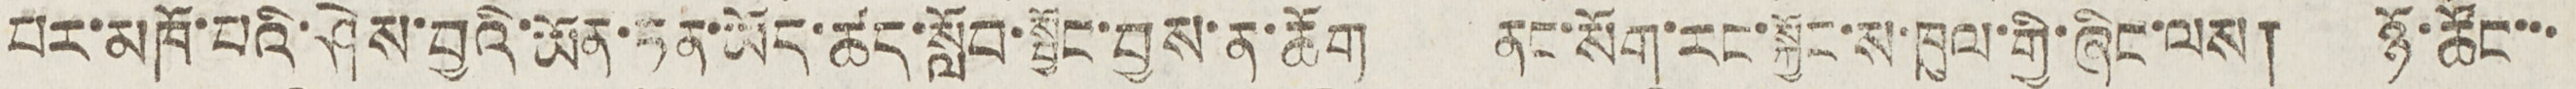པར་མཁོ་པའི་ཤེས་བྱའི་ཡོན་ཏན་ཡོད་ཚད་སློབ་སྦྱོང་བྱས་ན་ཆོག ནང་སོག་རང་སྐྱོང་ས་ཁུལ་གྱི་ཞིང་ལས། ཉོ་ཚོང་་་
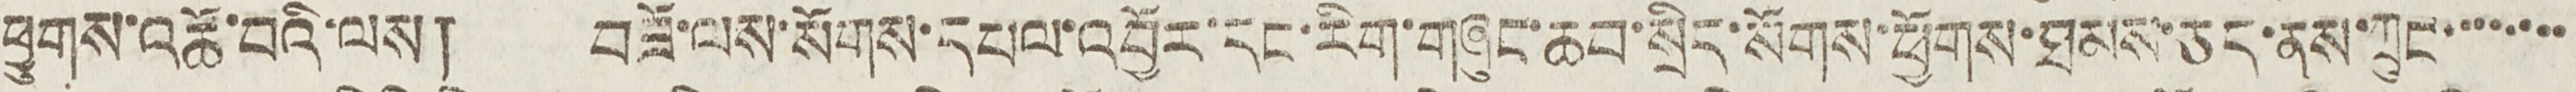ཕྱུགས་འཚོ་བའི་ལས། བཟོ་ལས་སོགས་དཔལ་འབྱོར་དང་རིག་གཞུང་ཆབ་སྲིད་སོགས་ཕྱོགས་ཐམས་ཅད་ནས་ཀྲུང་་་་་་་་
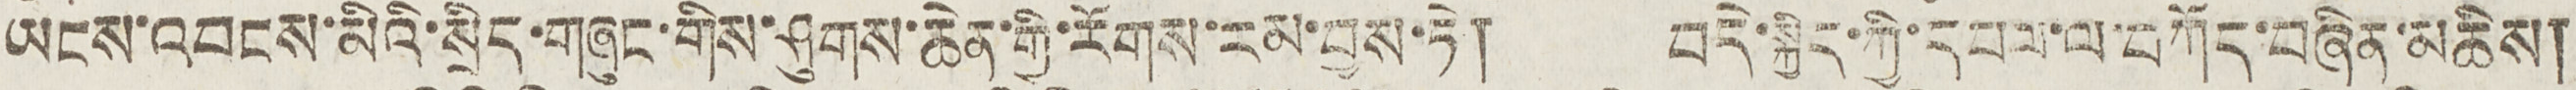ཡངས་འབངས་མིའི་སྲིད་གཞུང་གིས་ཤུགས་ཆེན་གྱི་རོགས་རམ་བྱས་ཏེ། བདེ་སྐྱིད་ཀྱི་དཔལ་ལ་བཀོད་བཞིན་མཆིས།
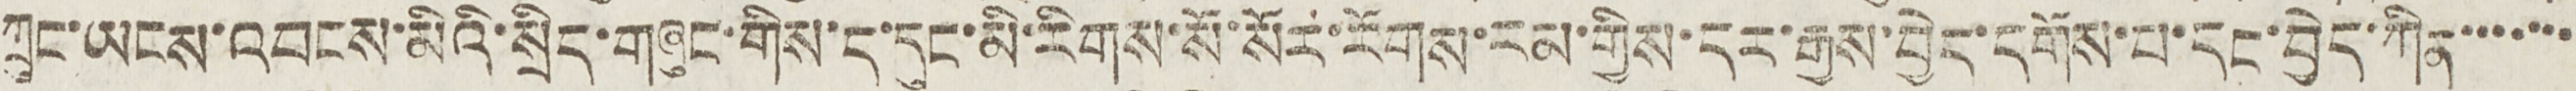ཀྲུང་ཡངས་འབངས་མིའི་སྲིད་གཞུང་གིས་ད་དུང་མི་རིགས་སོ་སོར་རོགས་རམ་གྱིས་དར་རྒྱས་བྱེད་དགོས་པ་དང་བྱེད་ཀིན་་་་་་་
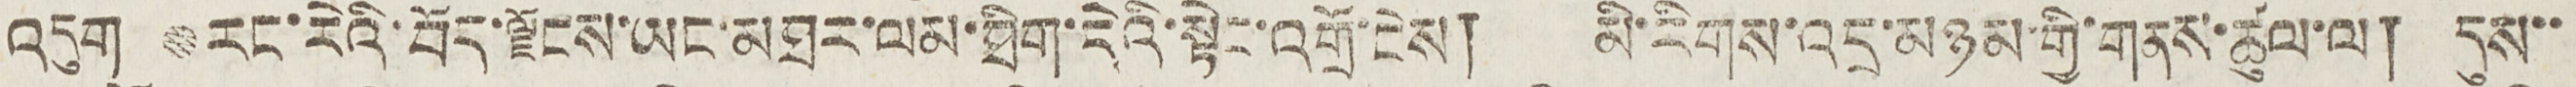འདུག རང་རེའི་བོད་ལྗོངས་ཡང་མཐར་ལམ་ཐིག་དེའི་སྟེང་འགྲོ་ངེས། མི་རིགས་འདྲ་མཉམ་གྱི་གནས་ཚུལ་ལ། དུས་་
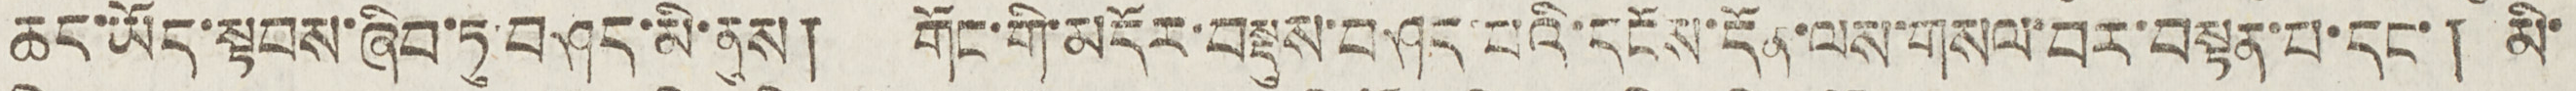ཆང་ཡོད་སྟབས་ཞིབ་ཏུ་བཤད་མི་ནུས། གོང་གི་མདོར་བསྡུས་བཤད་པའི་དངོས་དོན་ལས་གསལ་བར་བསྟན་པ་དང་། མི
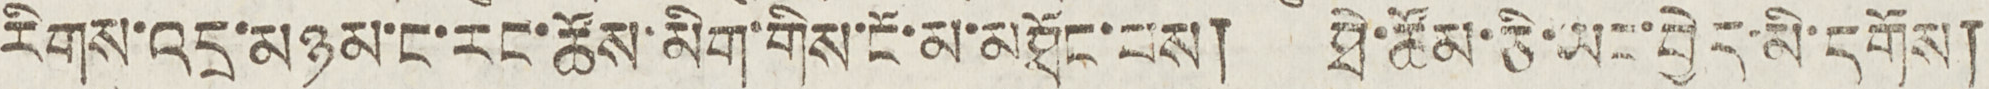རིགས་འདྲ་མཉམ་ང་རང་ཚོས་མིག་གིས་ངོ་མ་མཐོང་པས། ཐེ་ཚོམ་ཅི་ཡང་བྱེད་མི་དགོས།
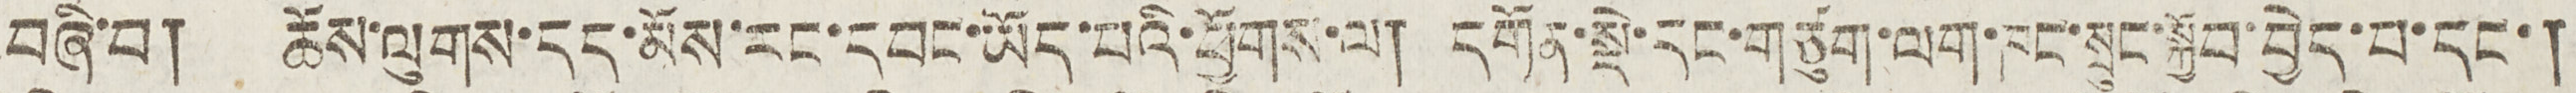བཞི་བ། ཆོས་ལུགས་དད་མོས་རང་དབང་ཡོད་པའི་ཕྱོགས་ལ། དགོན་སྡེ་དང་གཙུག་ལག་ཁང་སྲུང་སྐྱོབ་བྱེད་པ་དང་།
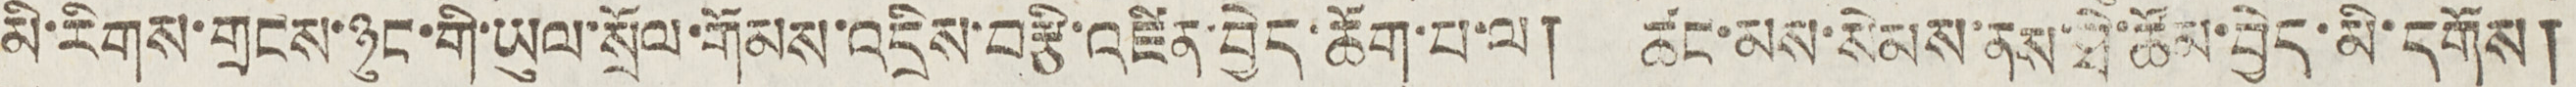མི་རིགས་གྲངས་ཉུང་གི་ཡུལ་སྲོལ་གོམས་འདྲིས་བརྩི་འཛིན་བྱེད་ཆོག་པ་ལ། ཚང་མས་སེམས་ནས་ཐེ་ཚོས་བྱེད་མི་དགོས།
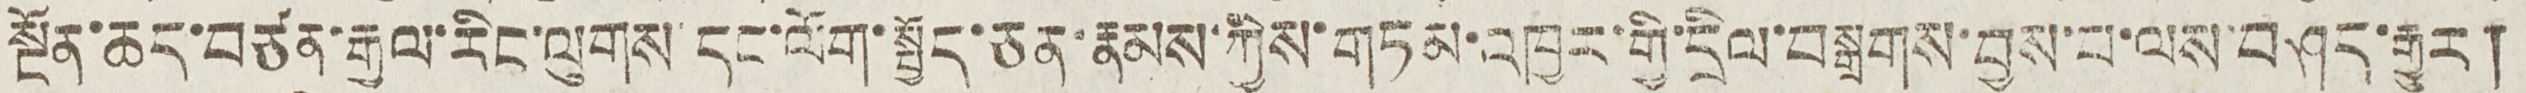སྔོན་ཆད་བཙན་རྒྱལ་རིང་ལུགས་དང་ལོག་སྤྱོད་ཅན་རྣམས་ཀྱིས་གཏམ་འཁྱར་གྱི་དྲིལ་བསྒྲགས་བྱས་པ་ལས་བཤད་རྒྱུར།
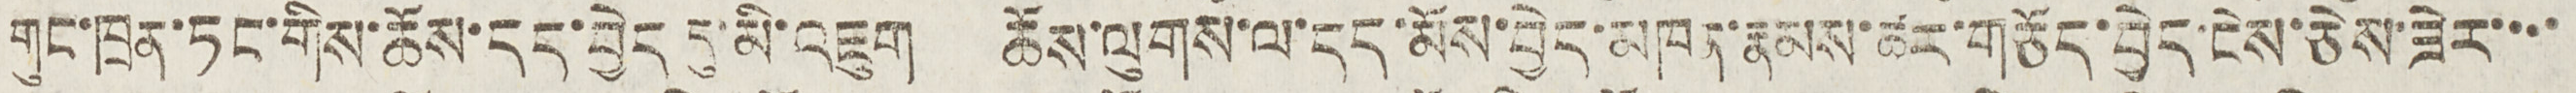གུང་ཁྲན་ཏང་གིས་ཆོས་དད་བྱེད དུ་མི་འཇུག ཆོས་ལུགས་ལ་དད་མོས་བྱེད་མཁན་རྣམས་ཚར་གཅོད་བྱེད་ངེས་ཅེས་ཟེར་་་་
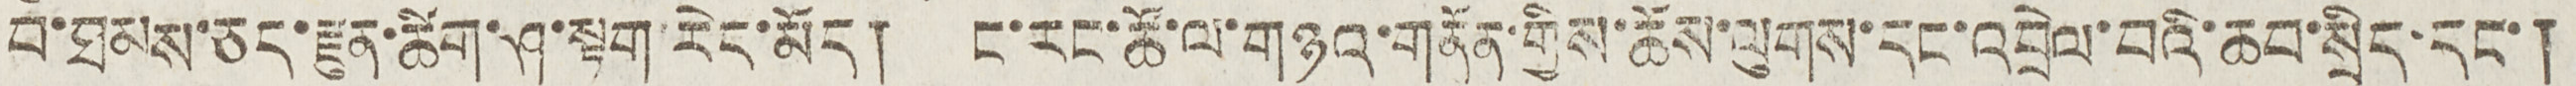བ་ཐམས་ཅད་རྫུན་ཚིག་ཤ་སྟག་རེད་མོད། ང་རང་ཚོ་ལ་གཉའ་གནོན་གྱིས་ཆོས་ལུགས་དང་འབྲེལ་བའི་ཆབ་སྲིད་དང་།
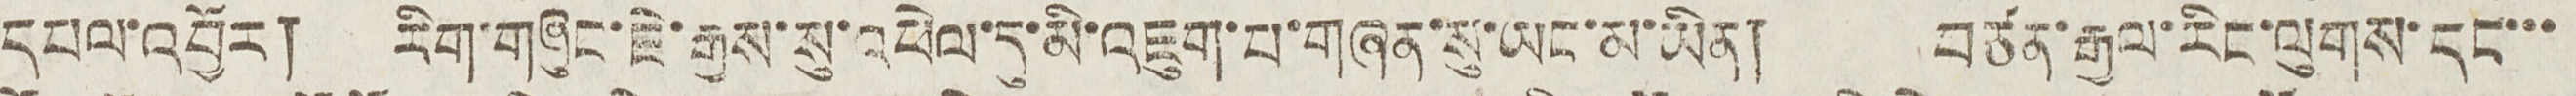དཔལ་འབྱོར། རིག་གཞུང་ཇེ་རྒྱས་སུ་འཕེལ་དུ་མི་འཇུག་པ་གཞན་སུ་ཡང་མ་ཡིན། བཙན་རྒྱལ་རིང་ལུགས་དང་་་
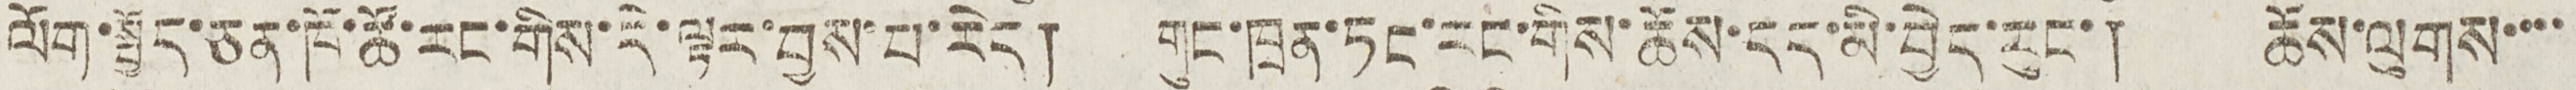ལོག་སྤྱོད་ཅན་ཁོ་ཚོ་རང་གིས་དེ་ལྟར་བྱས་པ་རེད། གུང་ཁྲན་ཏང་རང་གིས་ཆོས་དད་མི་བྱེད་རུང་། ཆོས་ལུགས་་་་
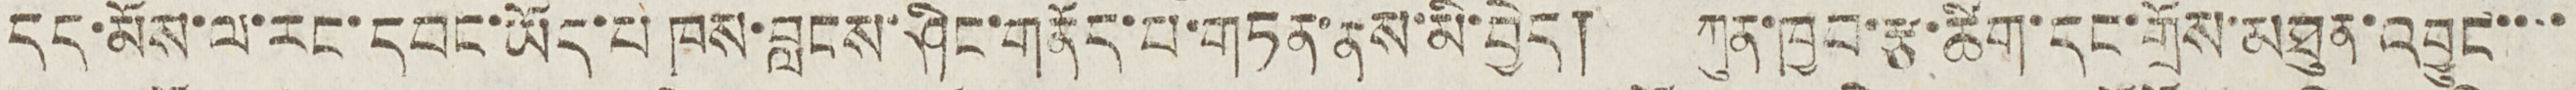དད་མོས་ལ་རང་དབང་ཡོད་པ ཁས་བླངས་ཤིང་གནོད་པ་གཏན་ནས་མི་བྱེད། ཀུན་ཁྱབ་རྩ་ཚིག་དང་གྲོས་མཐུན་འབྱུང་་་་
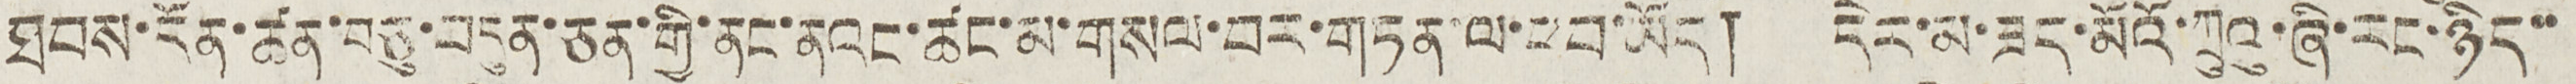ཐབས་དོན་ཚན་བཅུ་བདུན་ཅན་གྱི་ནང་ནའང་ཚང་མ་གསལ་བར་གཏན་ལ་ཕབ་ཡོད། དེར་མ་ཟད་མོའོ་ཀྲུའུ་ཞི་རང་ཉིད་་
